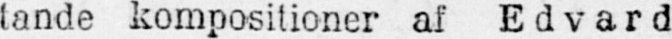tande kompositioner af Edvard
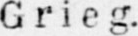Grieg.
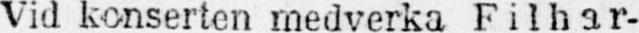Vid konserten medverka Filhar-
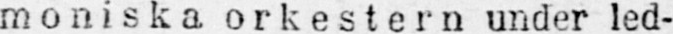moniska orkestern under led-
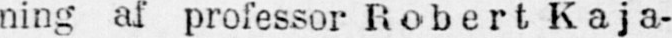ning af professor Robert Kaja-
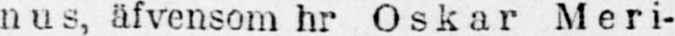nus, äfvensom hr Oskar Meri-
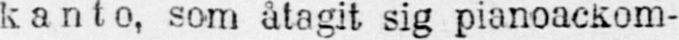kanto, som åtagit sig pianoackom-
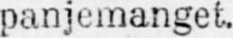panjemanget.
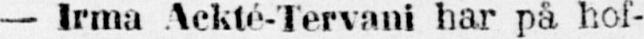— Irma Ackté-Tervani har på hof-
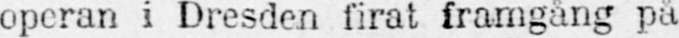operan i Dresden firat framgång på
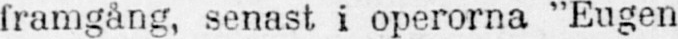framgång, senast i operorna “Eugen
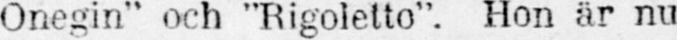Onegin“ och “Rigoletto“. Hon är nu
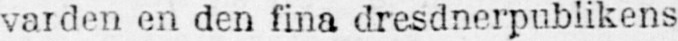varden en den fina dresdnerpublikens
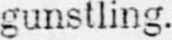gunstling.
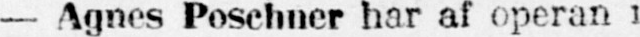— Agnes Poschner har af operan i
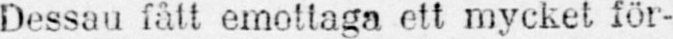Dessau fått emottaga ett mycket för-
